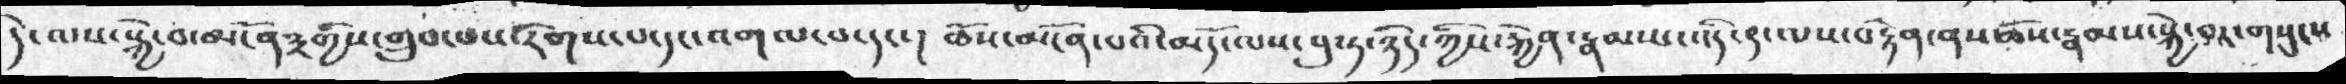དེ་ལས་སྐྱེ་བ་མངོན༣གྱིས་གྲུབ་པས་རིགས་པ་དང་འགལ་བ་དང་།  ཆོས་མངོན་པའི་མདོ་ལས་བུ་ཏ་ཉིད་ཀྱིས་རྐྱེན་རྣམས་འདི་༩་ལས་བརྟེན་ནས་ཆོས་རྣམས་སྐྱེ་བར་གསུངས
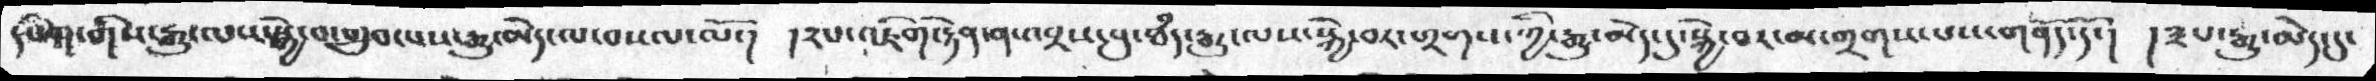དཔག་གིས་རྒྱུ་ལས་སྐྱེ་བ་གྲུབ་པས་རྒྱུ་མེད་ལ་བསལ་ལོ་། །༢པ་འཇིག་རེན་ནས་འབྲས་བུ་ཐཾད་རྒྱུ་ལས་སྐྱེ་བར་གྲགས་ཀྱི་རྒྱུ་མེད་དུ་སྐྱེ་བར་མ་གྲགས་པས་གནོད་དོ་།  །༣པ་རྒྱུ་མེད་དུ་
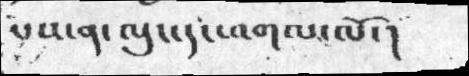པས་ན་ལུང་དང་འགལ་ལོ་།
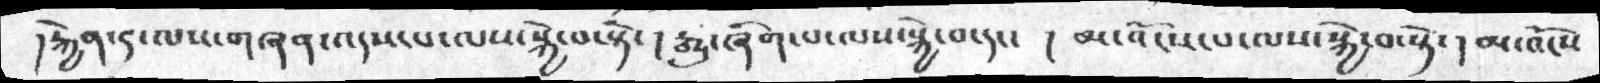། རྐྱེན་༩ལས་གཞན་འདས་པ་ལས་སྐྱེ་བ་སྟེ་ ། རྒྱུ་ཞིག་པ་ལས་སྐྱེ་བ་དང་།   ། མ་འོངས་པ་ལས་སྐྱེ་བ་སྟེ་།  མ་འོངས
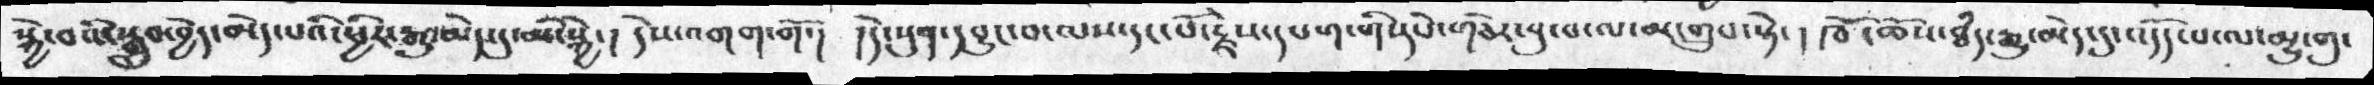སྐྱེ་བའི་སྒྲུབ་བྱེད་མེད་པའི་ཕྱིར་རྒྱུ་མེད་དུ་མི་སྐྱེ་། དེས་འགག་གོ་། །དེ་སུན་དབྱུང་བ་ལས་དང་པོ་རྗེས་དཔག་གི་དཔེ་གཅེར་བུ་པ་ལ་མ་གྲུབ་སྟེ་ ། ཁོ་ཆོས་ཐཾད་རྒྱུ་མེད་དུ་འདོད་པ་ལ་མྱུ་གུ་
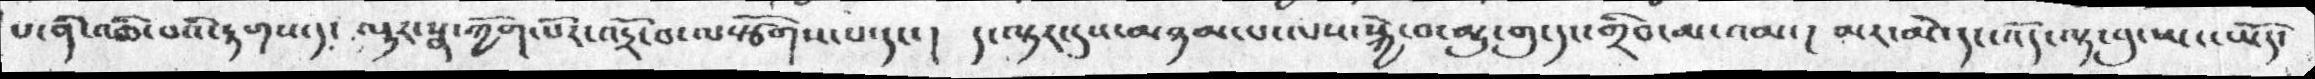པ་ནི་འཆི་བའི་རྟགས་ད་ ལྟར་སྣ་ཀྱོག་པོར་འདྲོ་བ་ལསྩོགས་པ་དང་། ད་ལྟར་དུས་མཉམ་པ་ལས་སྐྱེ་བ་མྱུ་གུ་དང་གྲིབ་མ་འམ་ ། མར་མེ་དང་འོད་ལྟ་བུ་ཡང་ཡོད་
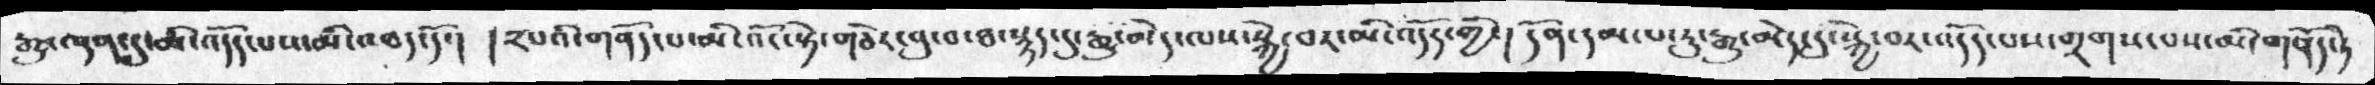རྒྱུ་ལྡན་དུ་མི་འདོད་པས་མི་འཐད་དོ་།  །༢པའི་གནོད་པ་མི་འོང་སྟེ་གཅེར་བུ་བ་ཐ་སྙད་དུ་རྒྱུ་མེད་ལས་སྐྱེ་བར་མི་འདོད་གྱི་།  དོན་དམ་པ་རུ་རྒྱུ་མེད་དུ་སྐྱེ་བར་འདོད་པས་གྲགས་པས་མི་གནོད་ཏེ
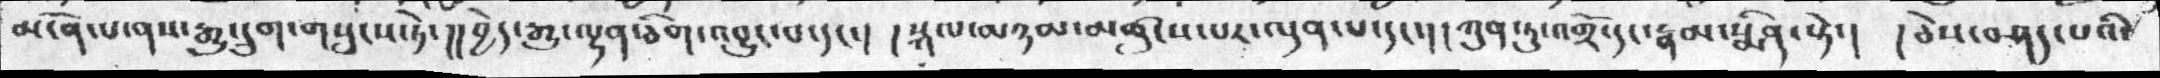མངོན་པ་ནས་རྒྱུ་དྲུག་གསུངས་ཏེ་།།བྱེད་རྒྱུ་ལྡན་ཅིག་འབྱུང་པ་དང་།  །སྐལ་མཉམ་མཚུངས་པར་ལྡན་པ་དང་།། ཀུན་ཏུ་འགྲོ་དང་རྣམ་སྨིན་སྟེ་།  །ཅེས་བཤད་པའི་
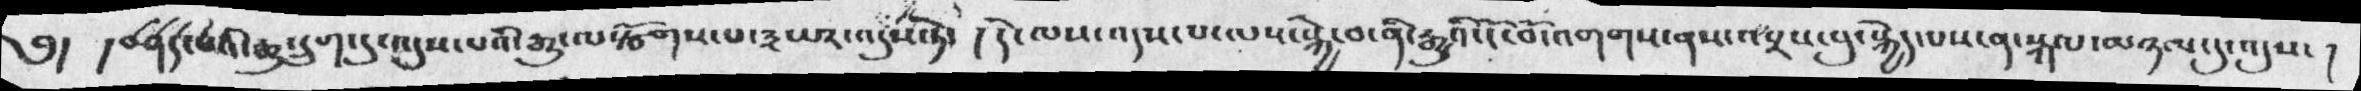༄།  །བཤད་པའི་རྒྱུ་དྲུག་དུ་འདུས་པའི་རྒྱུ་་ལསྩོགས་པ་༣ཡར་འདུས་ཏེ་།  དེ་ལས་འདས་པ་ལས་སྐྱེ་བ་ནི་རྒྱུའི་ངོ་བོ་འགགས་ནས་འབྲས་བུ་སྐྱེད་པས་ན་སྐལ་མཉམ་དུ་འདུས་ །
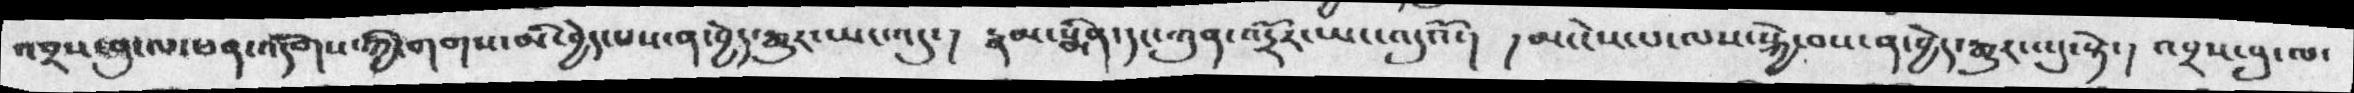འབྲས་བུ་ལ་ཕན་འདོགས་ཀྱི་གགས་མི་བྱེད་པས་ན་བྱེད་རྒྱུར་ཡང་འདུ་།  རྣམ་སྨིན་དང་ཀུན་འདྲོར་ཡང་འདུའོ་།  །མ་ངེས་པ་ལས་སྐྱེ་བས་ན་བྱེད་རྒྱུར་འདུ་སྟེ་། འབྲས་བུ་ལ་
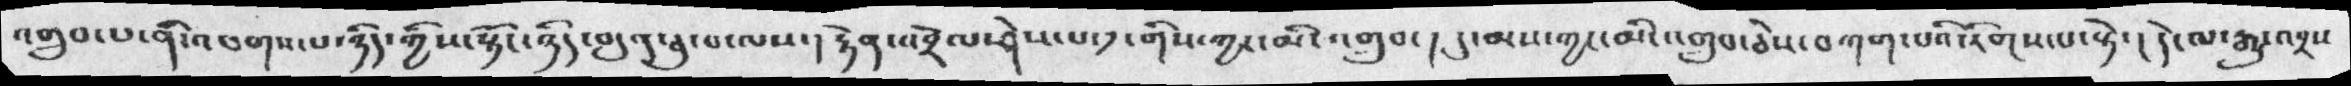འགྲུབ་པ་ནི་འཕགས་པ་ཉིད་ཀྱིས་སྟོང་ཉིད་བདུན་ཅུ་པ་ལས་། རྟེན་འབྲེལ་ཤེས་པ་༡་གིས་ཀྱང་མི་འགྲུབ་ ། དུ་མས་ཀྱང་མི་འགྲུབ་ཅེས་བཀག་པའི་རིགས་པ་སྟེ་། དེ་ལ་རྒྱུ་འབྲས
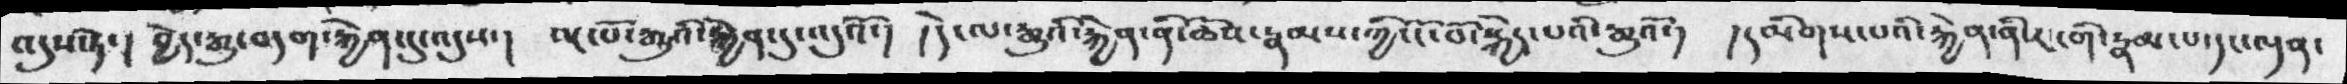འདུས་ཏེ་། བྱེད་རྒྱུ་བདག་རྐྱེན་དུ་འདུས་།  ལྔ་པོ་རྒྱུའི་རྐྱེན་དུ་འདུའོ་།  །དེ་ལ་རྒྱུའི་རྐྱེན་ནི་ཆོས་རྣམས་ཀྱི་ངོ་བོ་སྐྱེད་པའི་རྒྱུའོ་།  །དམིགས་པའི་རྐྱེན་ནི་རང་རྣམ་པ་དང་ལྡན་
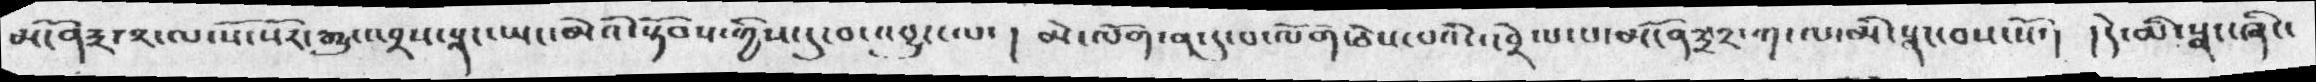མངོན་༣་༢་ལ་སོ་སོར་རྒྱུ་འབྲས་སྣང་ཡང་མེའི་སྟོབས་ཀྱིས་དུ་བ་འབྱུང་ལ་  ། མེ་ལོག་ན་དུ་བ་ལོག་ཅེས་པའི་འབྲེལ་པ་མངོན་༣་༢་ག་ལ་མི་སྣང་བས་སོ་། །དེ་མི་སྣང་ཞིང་
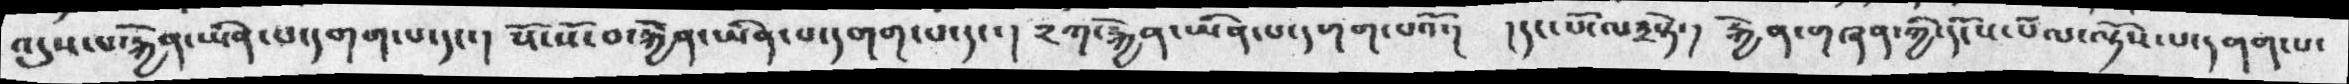འདུས་པ་རྐྱེན་ཡིན་དགག་པ་དང་།  སོ་སོ་བ་རྐྱེན་ཡིན་པ་དགག་པ་དང་ ༢ཀ་རྐྱེན་ཡིན་པ་དགག་པའོ་།  །དང་པོ་ལ༣སྟེ་། རྐྱེན་གཞན་གྱི་དངོས་པལ་ལྟོས་པ་དགག་པ་
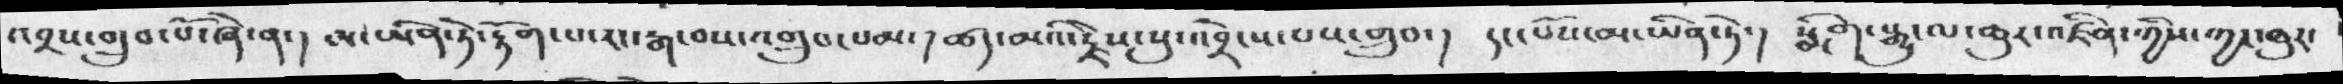འབྲས་གྲུབ་པོ་ཞེ་ན་། མ་ཡིན་ཏེ་རྟོག་པ་རང་རྒ་བས་འགྲུབ་པམ་ །ཚད་པའི་རྗེས་སུ་འབྲེངས་པས་གྲུབ་།  དང་པོས་མ་ཡིན་ཏེ་། སྨིག་སྒྱུ་ལ་ཆུར་འཛིན་གྱི་ཀྱང་ཆུར་
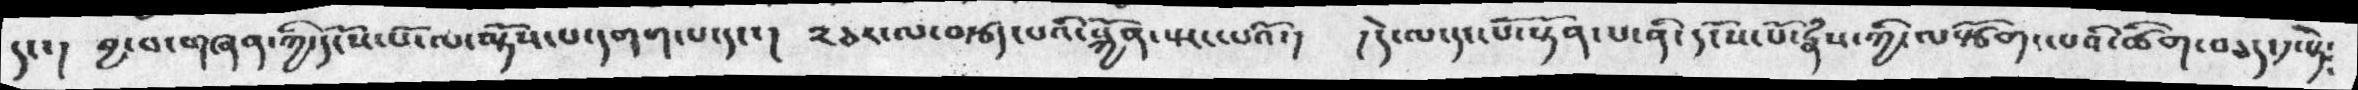དང་།  བྱ་བ་གཞན་གྱི་དངོས་པོ་ལ་ལྟོས་པ་དགག་པ་དང་། ༢ཅར་ལ་བརྩད་པའི་སྐྱོན་སྤང་པའོ་།  །དེ་ལ་དང་པོ་སྟོན་པ་ནི་དངོས་པོ་རྣཾས་ཀྱི་ལསྩོག་པའི་ཚིག་བཅད་༡་སྟེ༴
